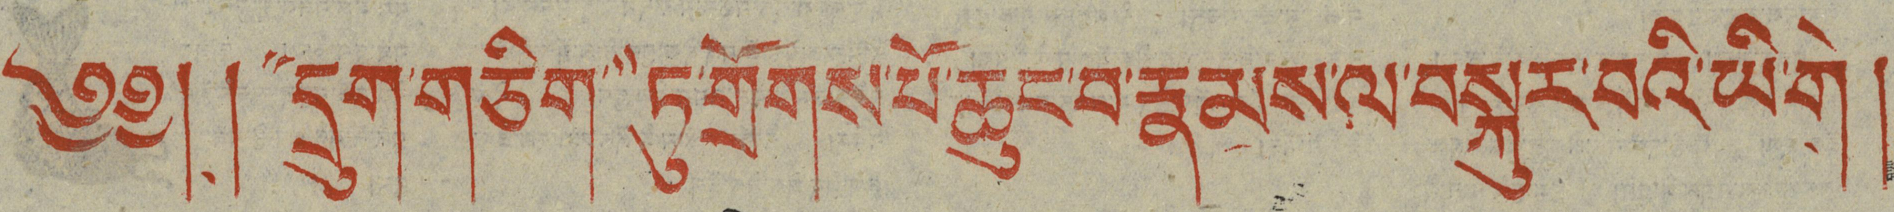༄༅། །"དྲུག་གཅིག་"ཏུ་གྲོགས་པོ་ཆུང་བ་རྣམས་ལ་བསྐུར་བའི་ཡི་གེ།
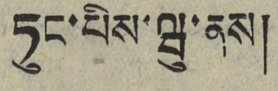ཏུང་པིས་ཝུ་ནས།
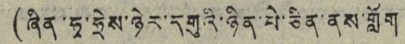(ཞིན་ཧྭ་ཧྲེས་ཉེར་དགུའི་ཉིན་པེ་ཅིན་ནས་གློག
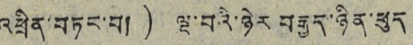འཕྲིན་བཏང་བ།) ལྔ་བའི་ཉེར བརྒྱད་ཉིན་ཕུད
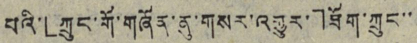པའི་「ཀྲུང་གོ་གཞོན་ནུ་གསར་འགྱུར་」ཐོག་ཀྲུང་་
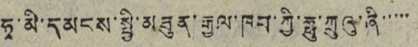ཧྭ་མི་དམངས་སྤྱི་མཐུན་རྒྱལ་ཁབ་ཀྱི་ཧྥུ་ཀྲུའུ་ནི་་་་་
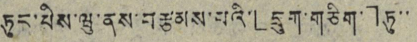ཏུང་པིས་ལུ་ནས་བརྩམས་པའི་「དྲུག་གཅིག་」ཏུ་་
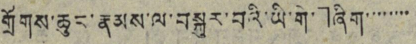གྲོགས་ཆུང་རྣམས་ལ་བསྐུར་བའི་ཡི་གེ་」ཞིག་་་་་་་་
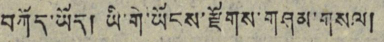བཀོད་ཡོད། ཡི་གེ་ཡོངས་རྫོགས་གཤམ་གསལ།
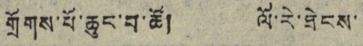གྲོགས་པོ་ཆུང་བ་ཚོ། ལོ་རེ་ཐེངས་
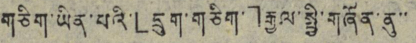གཅིག་ཡིན་པའི་「དྲུག་གཅིག་」རྒྱལ་སྤྱི་གཞོན་ནུ་་
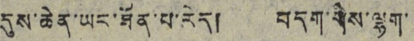དུས་ཆེན་ཡང་ཐོན་པ་རེད། བདག་གིས་ལྷག་
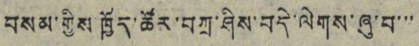བསམ་གྱིས ཁྱོད་ཚོར་བཀྲ་ཤིས་བདེ་ལེགས་ཞུ་བ་་་
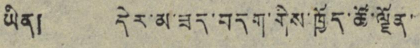ཡིན། དེར་མ་ཟད་བདག་གིས་ཁྱོད་ཚོ་ལྗོན་་
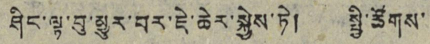ཤིང་ལྟ་བུ་མྱུར་བར་ཇེ་ཆེར་སྐྱེས་ཏེ། སྤྱི་ཚོགས་
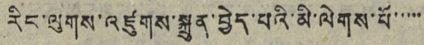རིང་ལུགས་འཛུགས་སྐྲུན་བྱེད་པའི་མི་ལེགས་པོ་་་་་
